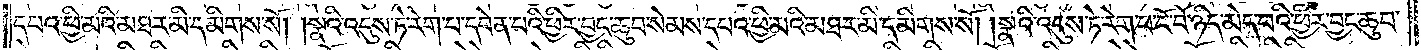དཔའ་ཕྱི་མའི་མཐར་མི་དམིགས་སོ། །སྣའི་འདུས་ཏེ་རེག་པ་དབེན་པའི་ཕྱིར་བྱང་ཆུབ་སེམས་དཔའ་ཕྱི་མའི་མཐར་མི་དམིགས་སོ། །སྣའི་འདུས་ཏེ་རེག་པ་ངོ་བོ་ཉིད་མེད་པའི་ཕྱིར་བྱང་ཆུབ་
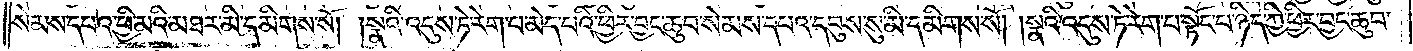སེམས་དཔའ་ཕྱི་མའི་མཐར་མི་དམིགས་སོ། །སྣའི་འདུས་ཏེ་རེག་པ་མེད་པའི་ཕྱིར་བྱང་ཆུབ་སེམས་དཔའ་དབུས་སུ་མི་དམིགས་སོ། །སྣའི་འདུས་ཏེ་རེག་པ་སྟོང་པ་ཉིད་ཀྱི་ཕྱིར་བྱང་ཆུབ་
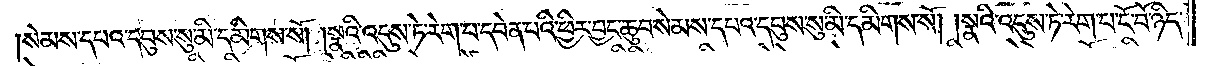སེམས་དཔའ་དབུས་སུ་མི་དམིགས་སོ། །སྣའི་འདུས་ཏེ་རེག་པ་དབེན་པའི་ཕྱིར་བྱང་ཆུབ་སེམས་དཔའ་དབུས་སུ་མི་དམིགས་སོ། །སྣའི་འདུས་ཏེ་རེག་པ་ངོ་བོ་ཉིད་
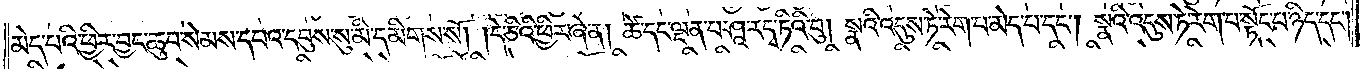མེད་པའི་ཕྱིར་བྱང་ཆུབ་སེམས་དཔའ་དབུས་སུ་མི་དམིགས་སོ། །དེ་ཅིའི་ཕྱིར་ཞེ་ན། ཚེ་དང་ལྡན་པ་ཤཱ་རདྭ་ཏིའི་བུ། སྣའི་འདུས་ཏེ་རེག་པ་མེད་པ་དང༌། སྣའི་འདུས་ཏེ་རེག་པ་སྟོང་པ་ཉིད་དང༌།
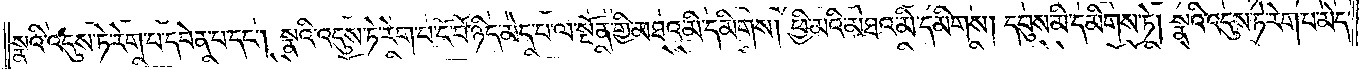སྣའི་འདུས་ཏེ་རེག་པ་དབེན་པ་དང༌། སྣའི་འདུས་ཏེ་རེག་པ་ངོ་བོ་ཉིད་མེད་པ་ལ་སྔོན་གྱི་མཐའ་མི་དམིགས། ཕྱི་མའི་མཐའ་མི་དམིགས། དབུས་མི་དམིགས་ཏེ། སྣའི་འདུས་ཏེ་རེག་པ་མེད་
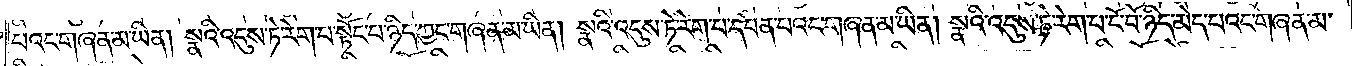པའང་གཞན་མ་ཡིན། སྣའི་འདུས་ཏེ་རེག་པ་སྟོང་པ་ཉིད་ཀྱང་གཞན་མ་ཡིན། སྣའི་འདུས་ཏེ་རེག་པ་དབེན་པའང་གཞན་མ་ཡིན། སྣའི་འདུས་ཏེ་རེག་པ་ངོ་བོ་ཉིད་མེད་པའང་གཞན་མ་
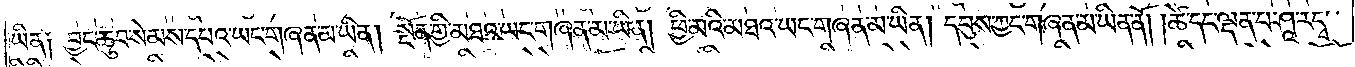ཡིན༑ བྱང་ཆུབ་སེམས་དཔའ་ཡང་གཞན་མ་ཡིན། སྔོན་གྱི་མཐའ་ཡང་གཞན་མ་ཡིན། ཕྱི་མའི་མཐའ་ཡང་གཞན་མ་ཡིན། དབུས་ཀྱང་གཞན་མ་ཡིན་ནོ། །ཚེ་དང་ལྡན་པ་ཤཱ་རདྭ་
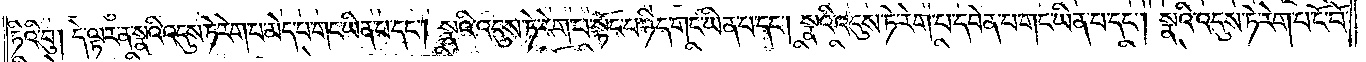ཏིའི་བུ། དེ་ལྟར་ན་སྣའི་འདུས་ཏེ་རེག་པ་མེད་པ་གང་ཡིན་པ་དང༌། སྣའི་འདུས་ཏེ་རེག་པ་སྟོང་པ་ཉིད་གང་ཡིན་པ་དང༌། སྣའི་འདུས་ཏེ་རེག་པ་དབེན་བ་གང་ཡིན་པ་དང༌། སྣའི་འདུས་ཏེ་རེག་པ་ངོ་བོ་
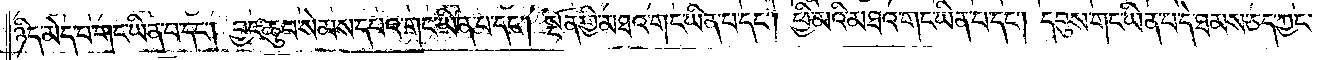ཉིད་མེད་པ་གང་ཡིན་པ་དང༌། བྱང་ཆུབ་སེམས་དཔའ་གང་ཡིན་པ་དང༌། སྔོན་གྱི་མཐའ་གང་ཡིན་པ་དང༌། ཕྱི་མའི་མཐའ་གང་ཡིན་པ་དང༌། དབུས་གང་ཡིན་པ་དེ་ཐམས་ཅད་ཀྱང་
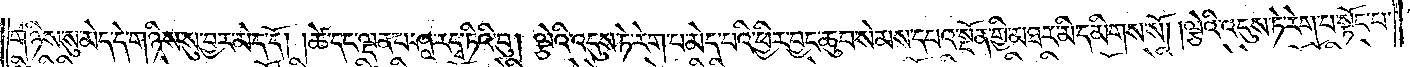གཉིས་སུ་མེད་དེ་གཉིས་སུ་བྱར་མེད་དོ། །ཚེ་དང་ལྡན་པ་ཤཱ་རདྭ་ཏིའི་བུ། ལྕེའི་འདུས་ཏེ་རེག་པ་མེད་པའི་ཕྱིར་བྱང་ཆུབ་སེམས་དཔའ་སྔོན་གྱི་མཐར་མི་དམིགས་སོ། །ལྕེའི་འདུས་ཏེ་རེག་པ་སྟོང་པ་
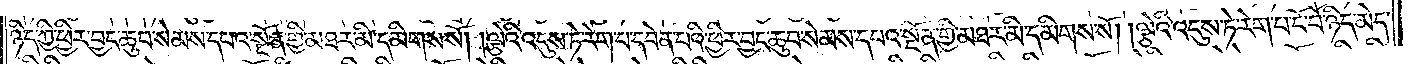ཉིད་ཀྱི་ཕྱིར་བྱང་ཆུབ་སེམས་དཔའ་སྔོན་གྱི་མཐར་མི་དམིགས་སོ། །ལྕེའི་འདུས་ཏེ་རེག་པ་དབེན་པའི་ཕྱིར་བྱང་ཆུབ་སེམས་དཔའ་སྔོན་གྱི་མཐར་མི་དམིགས་སོ། །ལྕེའི་འདུས་ཏེ་རེག་པ་ངོ་བོ་ཉིད་མེད་
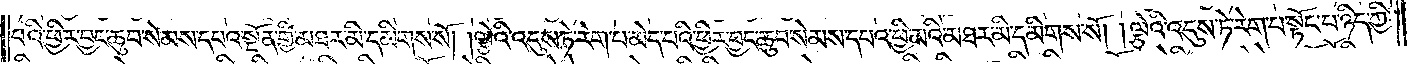པའི་ཕྱིར་བྱང་ཆུབ་སེམས་དཔའ་སྔོན་གྱི་མཐར་མི་དམིགས་སོ། །ལྕེའི་འདུས་ཏེ་རེག་པ་མེད་པའི་ཕྱིར་བྱང་ཆུབ་སེམས་དཔའ་ཕྱི་མའི་མཐར་མི་དམིགས་སོ། །ལྕེའི་འདུས་ཏེ་རེག་པ་སྟོང་པ་ཉིད་ཀྱི་
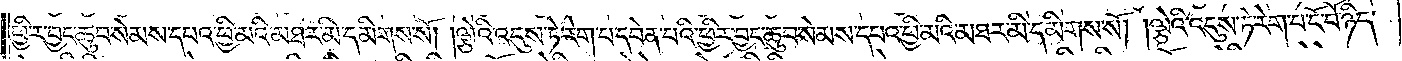ཕྱིར་བྱང་ཆུབ་སེམས་དཔའ་ཕྱི་མའི་མཐར་མི་དམིགས་སོ། །ལྕེའི་འདུས་ཏེ་རེག་པ་དབེན་པའི་ཕྱིར་བྱང་ཆུབ་སེམས་དཔའ་ཕྱི་མའི་མཐར་མི་དམིགས་སོ། །ལྕེའི་འདུས་ཏེ་རེག་པ་ངོ་བོ་ཉིད་
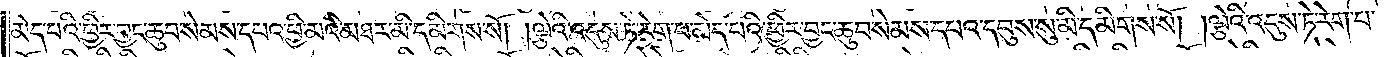མེད་པའི་ཕྱིར་བྱང་ཆུབ་སེམས་དཔའ་ཕྱི་མའི་མཐར་མི་དམིགས་སོ། །ལྕེའི་འདུས་ཏེ་རེག་པ་མེད་པའི་ཕྱིར་བྱང་ཆུབ་སེམས་དཔའ་དབུས་སུ་མི་དམིགས་སོ། །ལྕེའི་འདུས་ཏེ་རེག་པ་
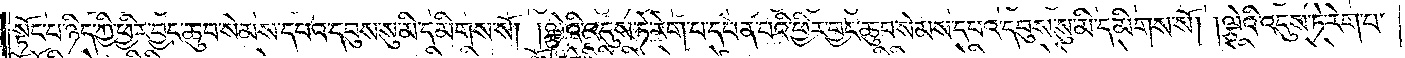སྟོང་པ་ཉིད་ཀྱི་ཕྱིར་བྱང་ཆུབ་སེམས་དཔའ་དབུས་སུ་མི་དམིགས་སོ། །ལྕེའི་འདུས་ཏེ་རེག་པ་དབེན་པའི་ཕྱིར་བྱང་ཆུབ་སེམས་དཔའ་དབུས་སུ་མི་དམིགས་སོ། །ལྕེའི་འདུས་ཏེ་རེག་པ་
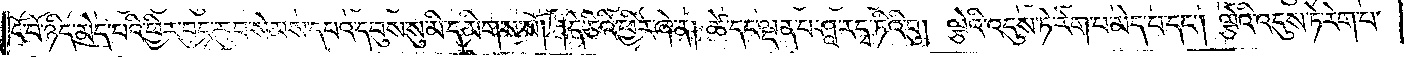ངོ་བོ་ཉིད་མེད་པའི་ཕྱིར་བྱང་ཆུབ་སེམས་དཔའ་དབུས་སུ་མི་དམིགས་སོ། །དེ་ཅིའི་ཕྱིར་ཞེ་ན། ཚེ་དང་ལྡན་པ་ཤཱ་རདྭ་ཏིའི་བུ། ལྕེའི་འདུས་ཏེ་རེག་པ་མེད་པ་དང༌། ལྕེའི་འདུས་ཏེ་རེག་པ་
